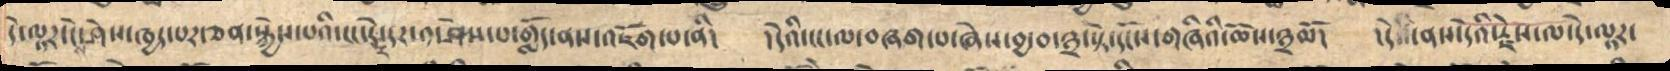དེ་ལྟར་ངེས་ཤེས་ཁྱད་པར་ཅན་སྐྱེས་པའི་ངང་དེར་དར་༡་ཤེས་པ་གློད་ན་འཇོག་པ་ནི།   །དེའི་ངང་ལ་བཞག་པ་ཞེས་བྱ་བ་༣་སྟེ་དངོས་གཞིའི་ཆོས་༣མོ།   །དེའི་ནས་དེའི་རྗེས་ལ་དེ་ལྟར་
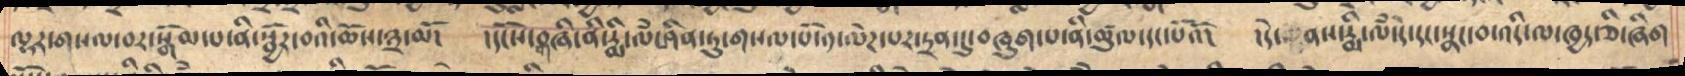ལྷར་གསལ་བར་སྒོམ་པ་ནི་སྦྱོར་བའི་ཆོས་༣་མོ།   །དངོས་གཞི་ནི་རྨ་ལཾ་ཤིན་ཏུ་གསལ་པོ་༡་ལེཌ་པར་དྲན་དུ་བཞུག་པ་ནི་ཚུལ་དང་པོའོ།་  །དེ་ནས་རྨི་ལཾ་དེ་དང་སྣང་བ་འདི་ལ་ཁྱད་ཅི་ཞིག
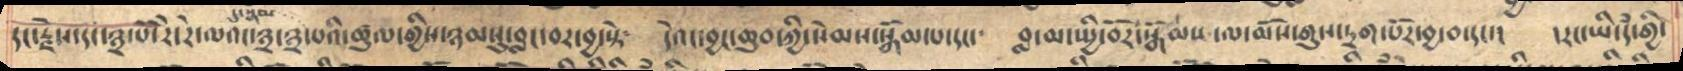དང་རྗེས་དང་༣་པོ་རེ་རེ་ལའང་༣་༣་པའི་ཚུལ་གྱིས་ཉམསུ་བླང་བར་བྱ་སྟེ༴   དེའང་བྱང་ཆུབ་ཀྱི་སེམས་སྒོམ་པ་དང་།  བླ་མ་སྤྱི་བོར་སྒོམས་ལ་མོས་གུས་དྲག་པོ་བྱ་དང་།   །རང་ཡི་དཾ་གྱི་
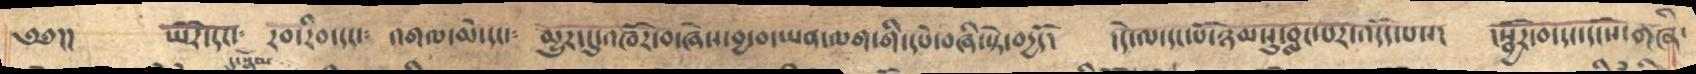༄༅།།  ཡོར་དང་  རབ་རིབབ་དང་༴  འགལ་མེ་དང་༴  མྱུར་དུ་འཁོར་བ་ཞེས་བྱ་བ་ཡན་ལག་གི་དཔེ་བཞི་སྟེ་བདྱདོ།   །དངེ་ལ་དང་པོ་ཉམས་སུ་བླང་པར་འདོད་པས།   །སྦྱོར་བ་དང་དངོས་གཞི་
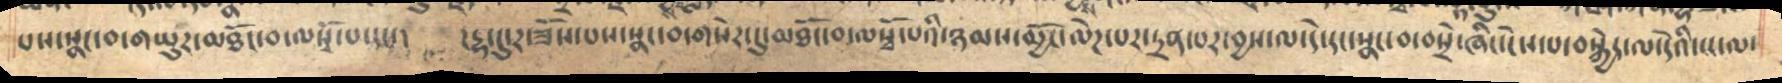པས་སྣང་བ་གཡུར་མཐོང་བ་ལསྭོ་པ་དང་། །དྷ་དུ་ར་ཟོས་པས་སྣང་བ་གསེར་དུ་མཐོང་བ་ལསྭོ་པའི་ཉམས་མྱོང་ལེཌ་པར་ཏྲན་པར་བྱས་ལ་དེ་དང་སྣང་བ་བསྲེ་ཞིང་ངེས་པ་བསྐྱེད་ལ་དེའི་ངང་ལ་
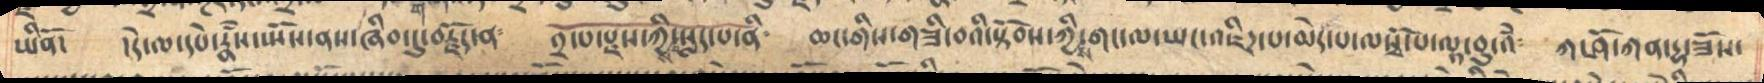ཡིནོ།   །དེ་ལ་དཔེ་རྣཾས་སྤོས་ནས་ཞིབ་དུ་བརྗོད་ན༴   ༢་པ་རྫས་ཀྱི་སླད་པ་ནི    ཆང་གིས་གཟི་བའི་སྟོབས་ཀྱིས་གང་ལ་ཡང་འཇིཌ་པ་མེད་ལསྭ་པ་ལྟ་བུ་འཾ༴   ཀ་ཤོ་ཀན་དྷ་ཟོས་
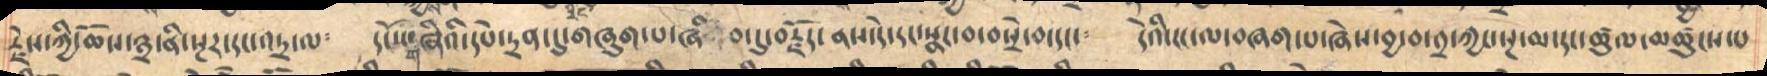རྗེས་ཀྱི་ཆོས་༣་ནི་སྔར་དང་འདྲ་ལ   དངོས་གཞིའི་དཔ་དྲན་དུ་གཞུག་པ་ཞི བ་དུ་བརྗོད་ནས་དེ་དང་སྣང་བ་བསྲེ་བ་བསྲེ་བ་དང་   དེའི་ངང་ལ་བཞག་པ་ཞེས་བྱ་བ་༢་ཀྱང་སྔ་མ་དང་ཚུལ་མཚུངས་པ
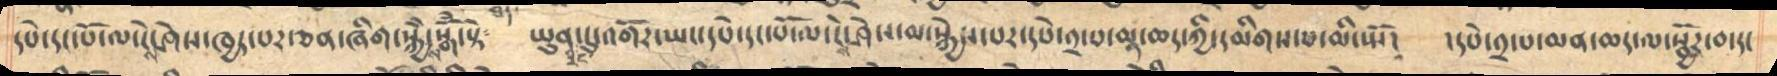དཔེ་དང་པོ་ལ་ངེས་ཤེས་ཁྱད་པར་ཅན་ཞིག་སྐྱེས་སྒོཾ་སྟེ༴   ཡུན་རིང་དུ་འགོར་ཡང་དཔེ་དང་པོ་ལ་ངེས་ཤེས་མ་སྐྱེས་པར་དཔེ་༢་པ་མན་ཆན་ཀྱི་དམིགས་པ་མི་སྤོ།  །དཔེ་༢་པ་མན་ཆད་ལ་སྦྱོར་བ་དང
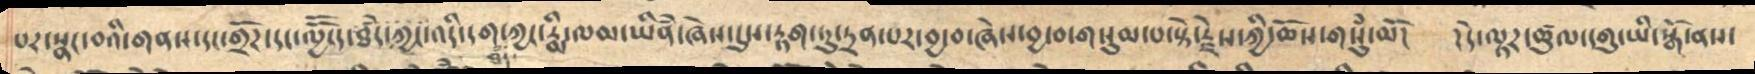པར་སྣང་བའི་གནས་དང་གྲོཌ་དང་ལྱོོངད་ཐཾད་ཀྱང་འདི་དག་ཐཾད་ཀྱང་རྨི་ལམ་ཡིནཾ་ཞེས་དུས་རྟག་ཏུ་དྲན་པར་བྱ་བ་ཞེས་བྱ་བ་གསུམ་པ་སྟེ་རྗེས་ཀྱི་ཆོས་གསུཾ་མོ།   །དེ་ལྟར་ཚུལ་དགུ་ཡི་སྒོ་ནས་
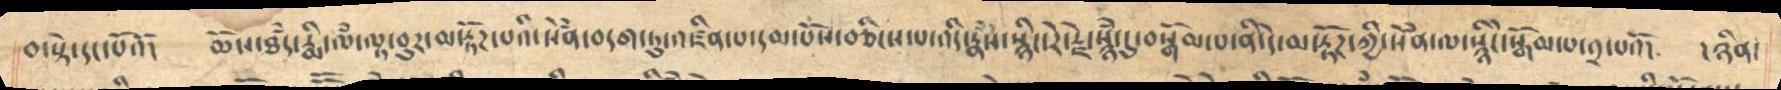བ་སྟེ་དང་པོའོ། ཆོས་ཐཾད་རྨི་ལཾ་ལྟ་བུར་མ་རྟོཌ་པའི་སེཾན་བདག་ཏུ་འཛིན་པ་དམ་པོས་བཅིངས་པ་འདི་རྣཾས་སྙིང་རེ་རྫེ་སྙཾ་དུ་བསྒོམ་པ་ནི་དེ་མ་རྟོཌ་ཀྱི་སེཾན་ལ་སྙིེང་སྒོམ་པ་༢་པའོ། །ཉིན་
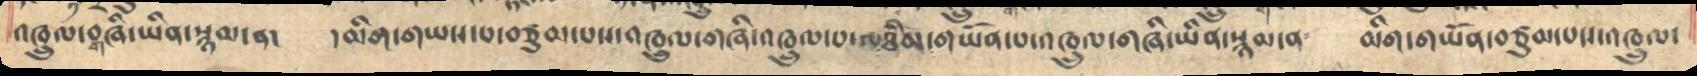འཁྲུལ་གཞི་ཡིན་སྙམ་ན།  །མིག་གཡས་པ་བཙུམ་པས་འཁྲུལ་གཞི་འཁྲུལ་པ་ཐིམ་གཡོན་པ་འཁྲུལ་གཞི་ཡིན་སྙམ་ན   མིག་གཡོན་པས་འཁྲུལ་
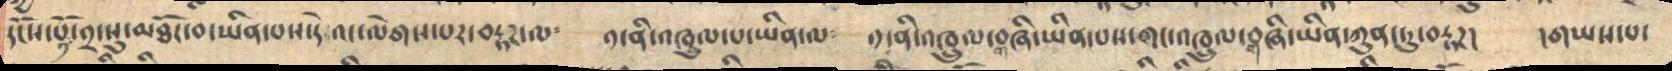དངོས་པོ་༡་༢་སུ་མཐོང་བ་ཡིན་པས་དེ་འང་ལེགས་པར་བརྟགསལ  ༡་ནི་འཁྲུལ་པ་ཡིན་ལ  ༡་ནི་འཁྲུལ་གཞི་ཡིན་པས་འཁྲུལ་གཞི་ཡིན་ཀུན་ཏུ་བརྟཌ།   །གཡས་པ་
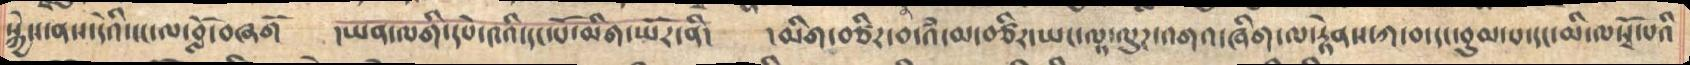སྐྱེས་ནས་དེའི་ངང་ལ་བློ་བཞགོ   །ཡན་ལགི་དཔེ་༤འི་དང་པོ་མིག་ཡོར་ནི།   །མིག་བཙིར་བ་འཾ་བཙིར་ཡང་ལྟ་ལུཌ་འགའ་ཞིག་ལ་རྟེནས་ཀ་བ་དང་བུམ་པ་དང་མི་ལསྭོ་པའི
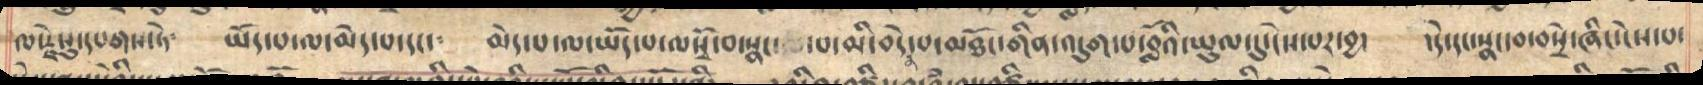ལ་རྗེས་སུ་དཔགས་ཏེ༴   ཡོད་པ་ལ་མེད་པ་དང་།   མེད་པ་ལ་ཡོད་པ་ལསྭ་བ་སྣང་  བ་མི་བདེན་པ་མཐོང་གིན་འདུག་པ་བློའི་ཡུལ་དུ་ངེས་པར་བྱ།  །དེ་དང་སྣང་བ་བསྲེ་ཞིང་ངེས་པ་
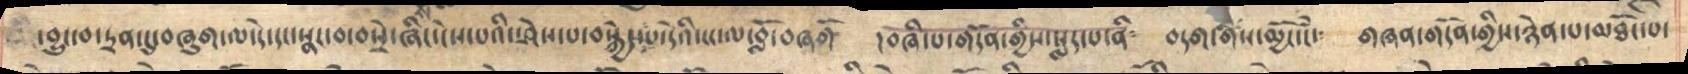་བྱུང་བ་དྲན་དུ་བཞུག་པ་དེ་དང་སྣང་བ་བསྲེ་ཞིང་ངེས་པའི་ཤེས་པ་བསྐྱེད་པ་དེའི་ངང་ལ་བློ་བཞགོ   །བཞི་པ་གདོན་གྱིས་སླད་པ་ནི   བདག་གིས་མྱོང་ངཾ་  གཞན་གདོན་གྱིས་ཉེན་པ་མཐོང་པ་
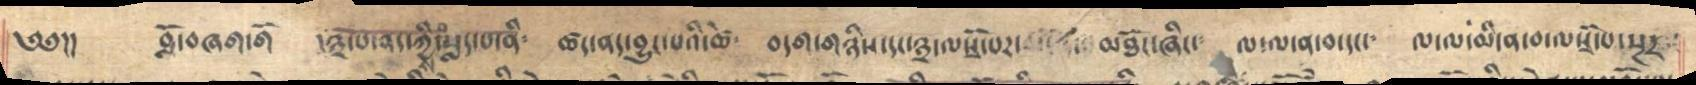༄༅།།  བློ་བཞག་གོ  ་༣་ལ་ནད་ཀྱིས་བསླད་པ་ནི  ཚད་ནད་བྱུང་ཚེ   བདག་གཉིས་དང་༣་ལསྭོ་པར་   མཐོང་ཞིང་  ལ་ལ་ན་བ་དང་   ལ་ལ་མི་ན་བ་ལསྭོ་པ་སྔར
